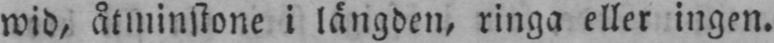wid, åtminstone i längden, ringa eller ingen.
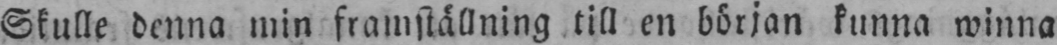Skulle denna min framställning till en början kunna winna
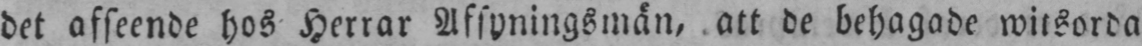det afseende hos Herrar Afsyningsmän, att de behagade witsorda
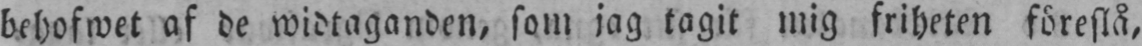behofwet af de widtaganden, som jag tagit mig friheten föreslå,
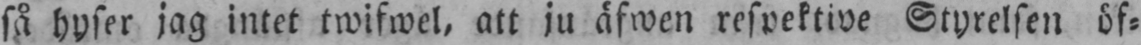så hyser jag intet twifwel, att ju äfwen respektive Styrelsen öf-
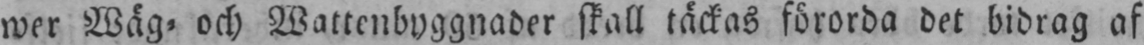wer Wäg- och Wattenbyggnader skall täckas förorda det bidrag af
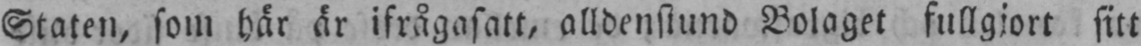Staten, som här är ifrågasatt, alldenstund Bolaget fullgjort sitt
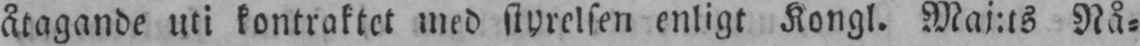åtagande uti kontraktet med styrelsen enligt Kongl. Maj:ts Nå-
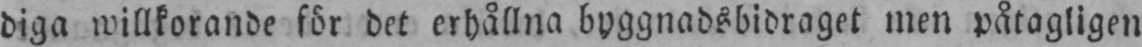diga willkorande för det erhållna byggnadsbidraget men påtagligen
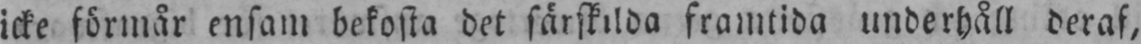icke förmår ensam bekosta det särskilda framtida underhåll deraf,
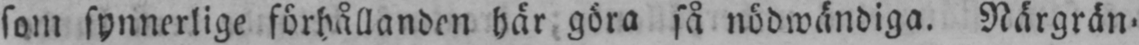som synnerlige förhållanden här göra så nödwändiga. Närgrän-
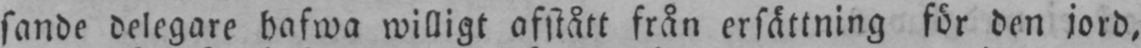sande delegare hafwa willigt afstått från ersättning för den jord,
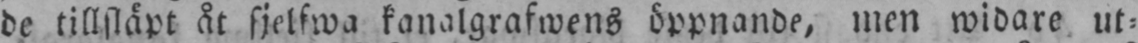de tillsläpt åt sjelfwa kanalgrafwens öppnande, men widare ut-
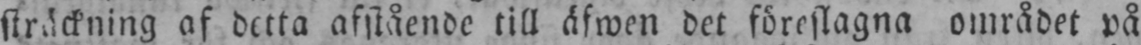sträckning af detta afstående till äfwen det föreslagna området på
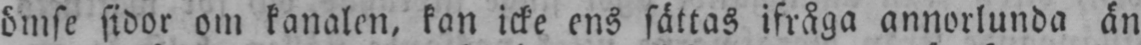ömse sidor om kanalen, kan icke ens sättas ifråga annorlunda än
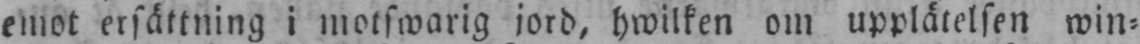emot ersättning i motswarig jord, hwilken om upplåtelsen win-
